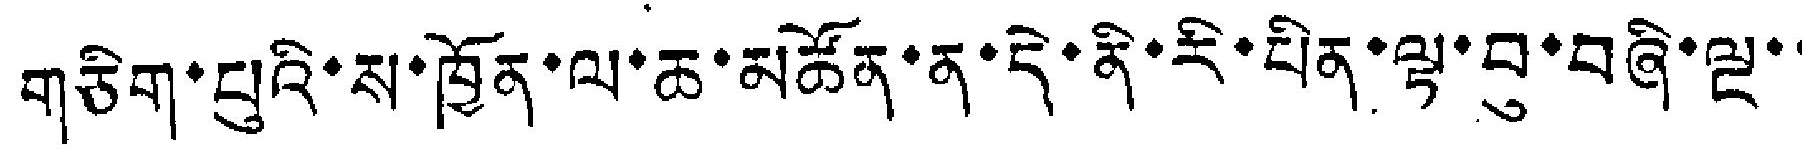གཅིག་པུའི་ས་ཁྱོན་ལ་ཆ་མཚོན་ན་དེ་ནི་རི་པིན་ལྟ་བུ་བཞི་ལྔ་་
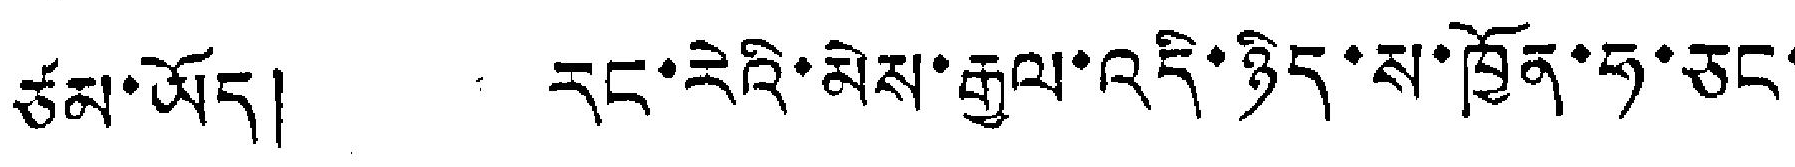ཙམ་ཡོད། རང་རེའི་མེས་རྒྱལ་འདི་ཉིད་ས་ཁྱོན་ཧ་ཅང་
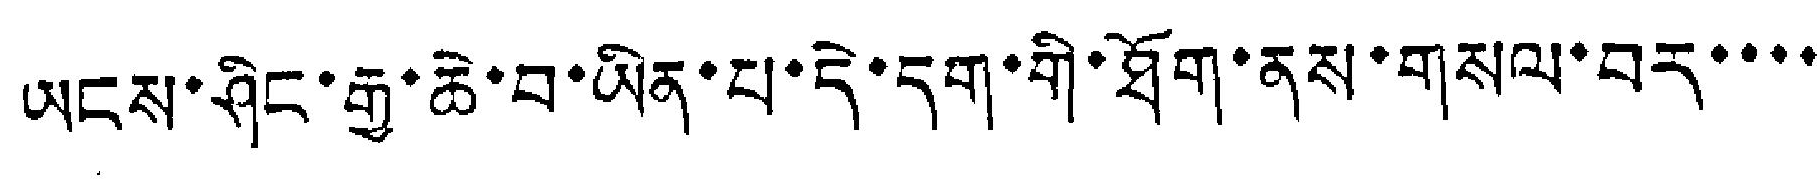ཡངས་ཤིང་རྒྱ་ཆེ་བ་ཡིན་པ་དེ་དག་གི་ཐོག་ནས་གསལ་བར་་་་
